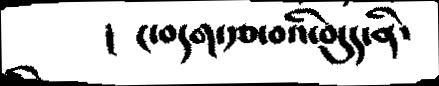།   ང་བདག་རྩ་བའི་བདུད་ནི་
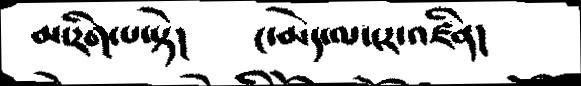མ་རིག་པ་སྟེ།    ང་མེད་ལ་ངར་འཛིན།
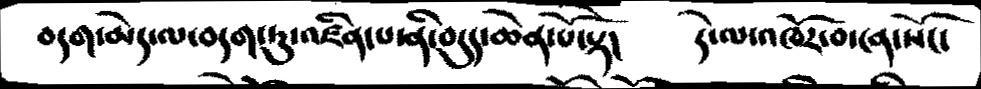བདག་མེད་ལ་བདག་ཏུ་འཛིན་པ་ནི་བདུད་ཆེན་པོ་སྟེ།    དེ་ལ་འཁོར་བ་ངན་སོང་
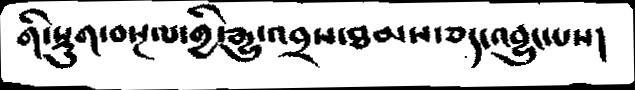གི་སྡིག་བསྔལ་གྱི་རྒྱུ་འབྲས་ཐམས་ཅད་འབྱུང་པས།
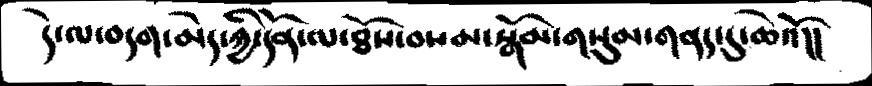དེ་ལ་བདག་མེད་ཀྱི་དོན་ལ་ཐོས་བསམ་སྒོམ་གསུམ་གནད་དུ་ཆེའོ།།
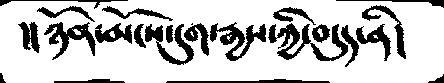།།ཉོན་མོངས་དུག་རྒྱས་ཀྱི་བདུད་ནི།
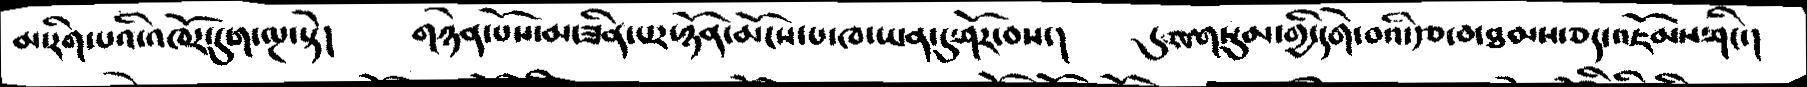མ་རིག་པའི་འཁོར་དུག་ལྔ་སྟེ།    གཉེན་པོས་མ་ཟིན་པར་ཉོན་མོངས་པ་ཁ་ཡན་དུ་ཤོར་བས་།    དུས་གསུམ་གྱི་དགེ་བའི་རྩ་བ་ཐམས་ཅད་འཇོམས་ཤིང་།
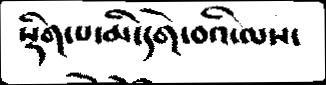སྡིག་པ་མི་དགེ་བའི་ལས་
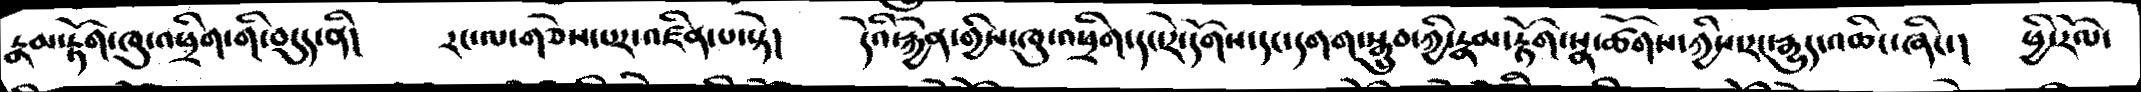རྣམ་རྟོག་ཁུ་འཕྲིག་གི་བདུད་ནི།     རང་ལ་གཅེས་པར་འཛིན་པ་སྟེ།   དེའི་རྐྱེན་གྱིས་ཁུ་འཕྲིག་དང་རེ་དོགས་དང་དགག་སྒྲུབ་ཀྱི་རྣམ་རྟོག་སྣ་ཚོགས་ཀྱིས་རང་རྒྱུད་འཆིང་ཞིང་།   ཕྱི་རོལ་
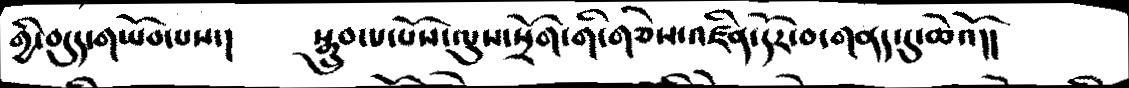གྱི་བདུད་གཡོབ་པས་།      སྒྲུབ་པ་པོས་ལུས་སྲོག་གི་གཅེས་འཛིན་དོར་བ་གནད་དུ་ཆེའོ།།
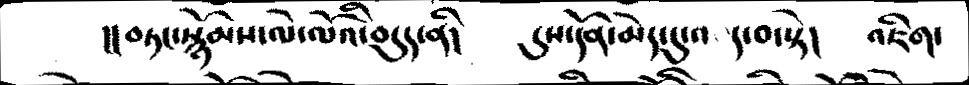།།བཏང་སྙོམས་ལེ་ལོའི་བདུད་ནི།     དུས་དོན་མེད་དུ་འ ད་བ་སྟེ།     འཇིག་
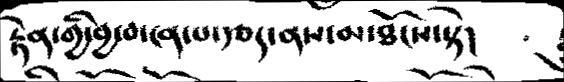རྟེན་གྱི་བྱ་བ་ངན་པ་རྩད་ནས་མ་ཐོངས་སྟེ།
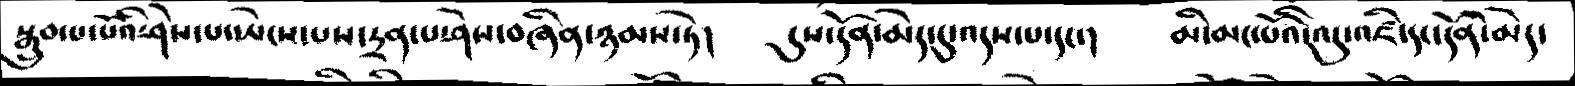སྒྲུབ་པ་པོའི་ཤེས་པ་ཡེངས་པས་དྲན་པ་ཤེས་བཞིན་ཉམས་ཏེ།  དུས་དོན་མེད་དུ་འདས་པ་དང་།  མི་མང་པོའི་འདུ་འཛི་དང་དོན་མེད་
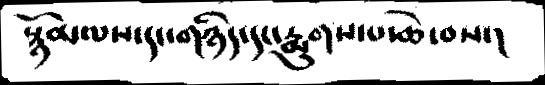སྙོམལས་དང་གཉིད་དང་རྨུགས་པ་ཆེ་བས་།
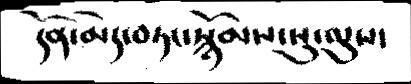དོན་མེད་བཏང་སྙོམས་སུ་ལུས་
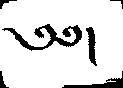༄༅།
